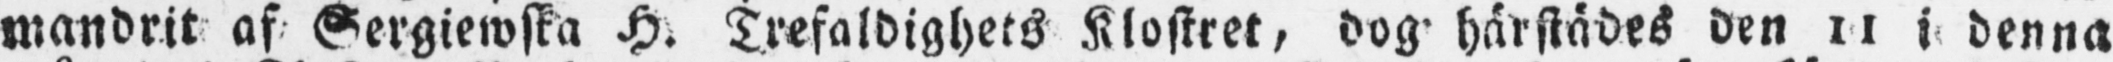mandrit af Sergiewska H. Trefaldighets Klostret, dog härstädes den 11 i denna
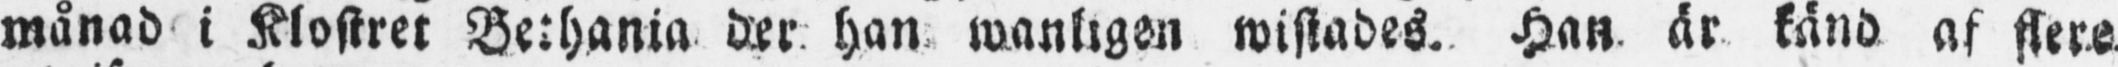månad i Klostret Bethania der han wanligen wistades. Han är känd af flere
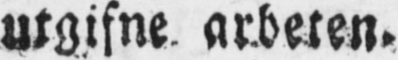utgifne arbeten.
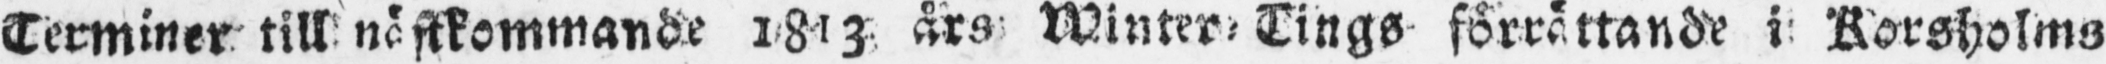Terminer till nästkommande 1813 års Winter-Tings förrättande i Korsholms
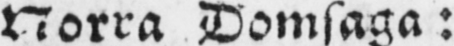Norra Domsaga:
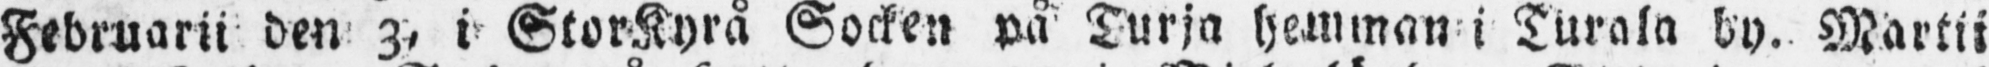Februarii den 3, i StorKyrå Socken på Turja hemman i Turala by. Martii
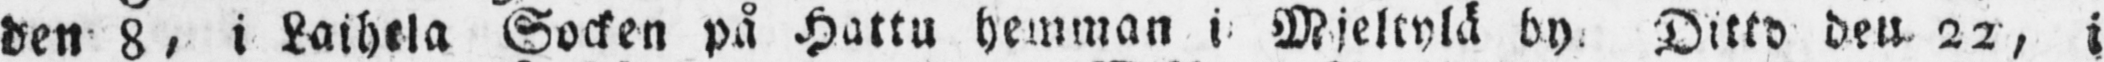den 8, i Laihela Socken på Hattu hemman i Mjeltylä by. Ditto den 22, i
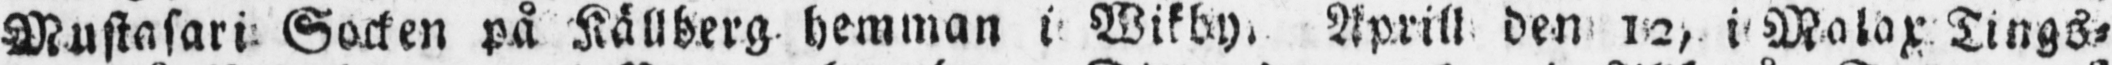Mustasari Socken på Källberg hemman i Wikby. Aprill den 12, i Malax Tings-
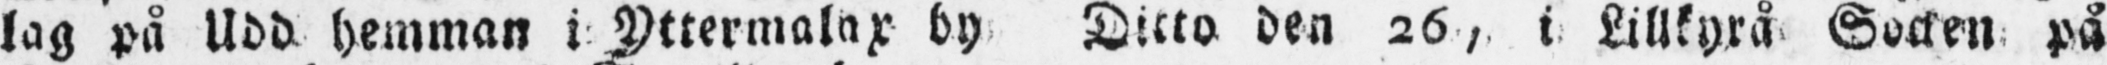lag på Udd hemman i Yttermalax by Ditto den 26, i Lillkyrå Socken på
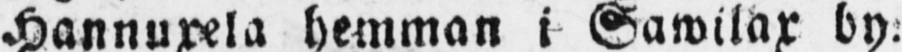Hannuxela hemman i Sawilax by.
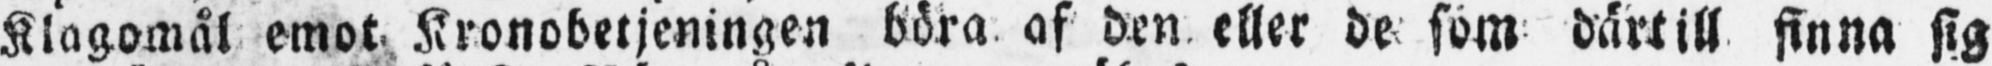Klagomål emot Kronobetjeningen böra af den eller de som därtill finna sig
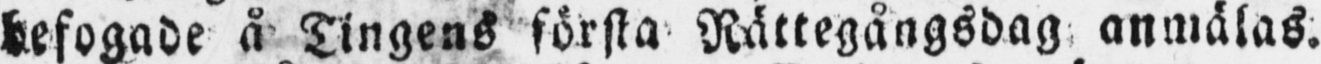befogade å Tingens första Rättegångsdag anmälas.
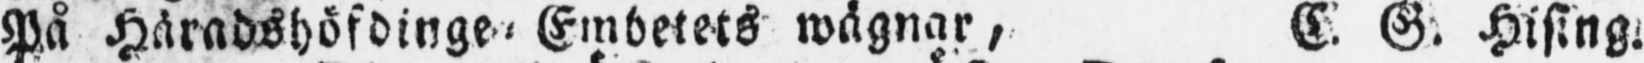På Häradshöfdinge-Embetets wägnar, C. G. Hising.
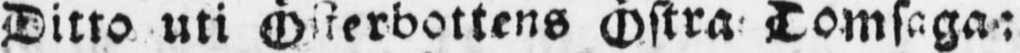Ditto uti Österbottens Östra Domsaga:
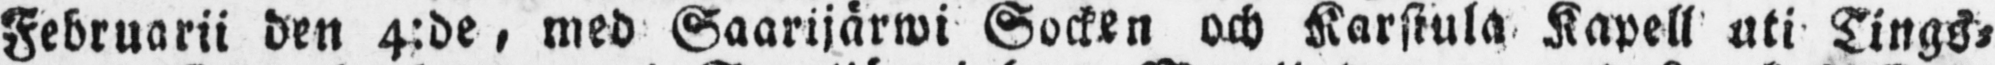Februarii den 4:de, med Saarijärwi Socken och Karstula Kapell uti Tings-
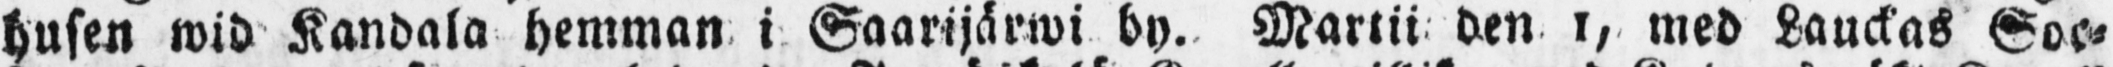husen wid Kandala hemman i Saarijärwi by. Martii den 1, med Lauckas Soc-
